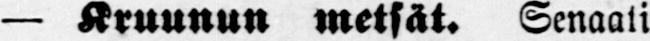— Kruunun metsät. Senaati
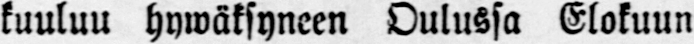kuuluu hywäksyneen Oulussa Elokuun
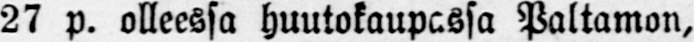27 p. olleessa huutokaupassa Paltamon,
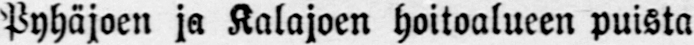Pyhäjoen ja Kalajoen hoitoalueen puista
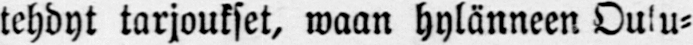tehdyt tarjoukset, waan hylänneen Oulu-
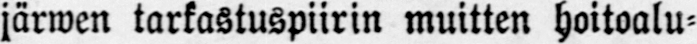järwen tarkastuspiirin muitten hoitoalu-
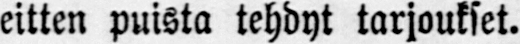eitten puista tehdyt tarjoukset.
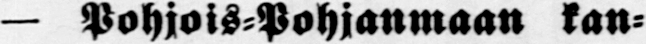— Pohjois-Pohjanmaan kan-
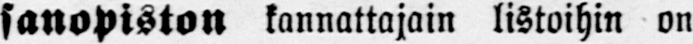sanopiston kannattajain listoihin on
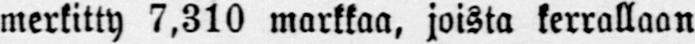merkitty 7,310 markkaa, joista kerrallaan
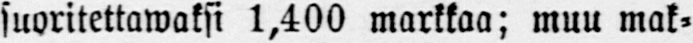suoritettawaksi 1,400 markkaa; muu mak-
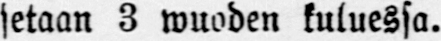setaan 3 wuoden kuluessa.
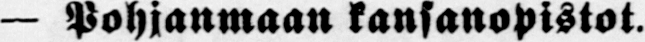— Pohjanmaan kansanopistot.
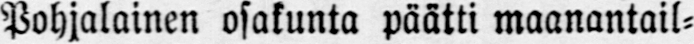Pohjalainen osakunta päätti maanantail-
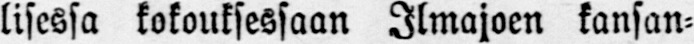lisessa kokouksessaan Ilmajoen kansan-
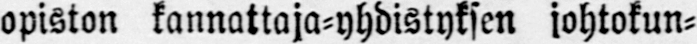opiston kannattaja-yhdistyksen johtokun-
